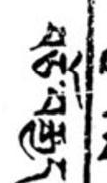བཅོ་བརྒྱད་
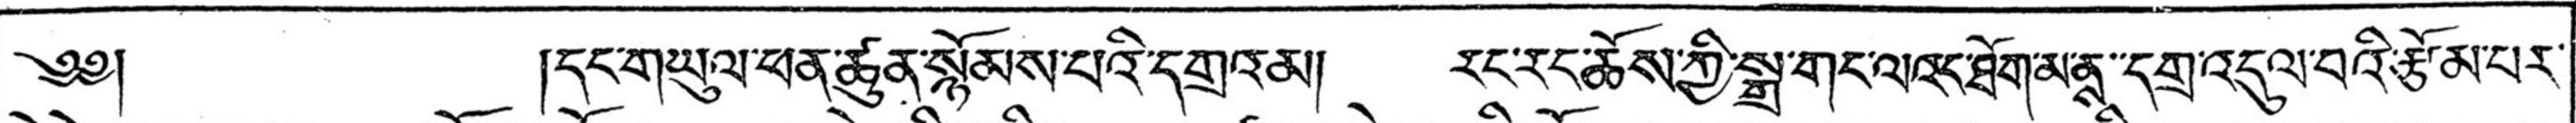༄༅། །དང་གཡུལ་ཕན་ཚུན་སྙོམས་པའི་དགྲའམ། རང་རང་ཆོས་ཀྱི་སྒྲ་གང་ལའང་ཐོག་མ་ནས་་དགྲ་འདུལ་བའི་རྩོམ་པར་
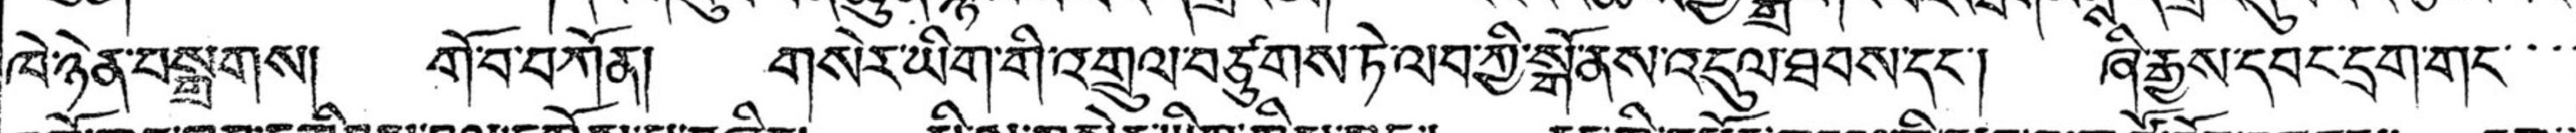ཁེ་ཉེན་བསྒྲགས། གོ་བ་བཀོན། གསེར་ཡིག་གི་འགྲུལ་བཙུགས་ཏེ་ལབ་ཀྱི་སྒོ་ནས་འདུལ་ཐབས་དང་། ཞི་རྒྱས་དབང་དྲག་གང་་་་
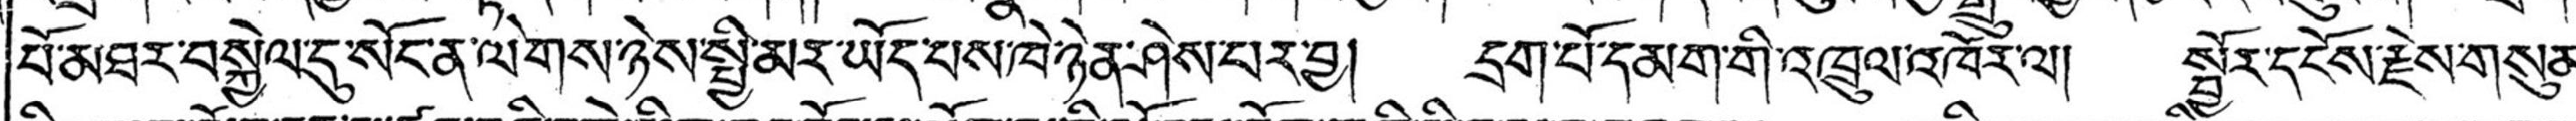པོ་མཐར་བསྐྱེལ་དུ་སོང་ན་ལེགས་ཉེས་སྤྱི་མར་ཡོད་པས་ཁེ་ཉེན་ཤེས་པར་བྱ། དྲག་པོ་དམག་གི་འཁྲུལ་འཁོར་ལ། སྦྱོར་དངོས་རྗེས་གསུམ་
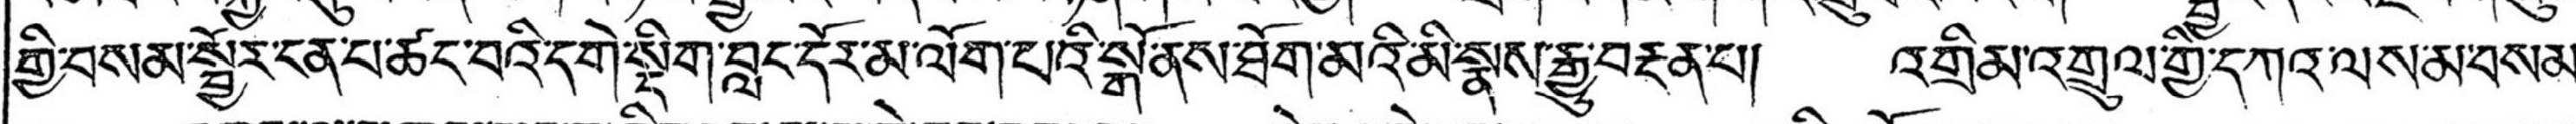གྱི་བསམ་སྦྱོར་ངན་པ་ཚང་བའི་དགེ་སྡིག་བླང་དོར་མ་ལོག་པའི་སྒོ་ནས་ཐོག་མའི་མི་སྣས་རྒྱུ་བརྔན་པ། འགྲིམ་འགྲུལ་གྱི་དཀའ་ལས་མ་བསམ་
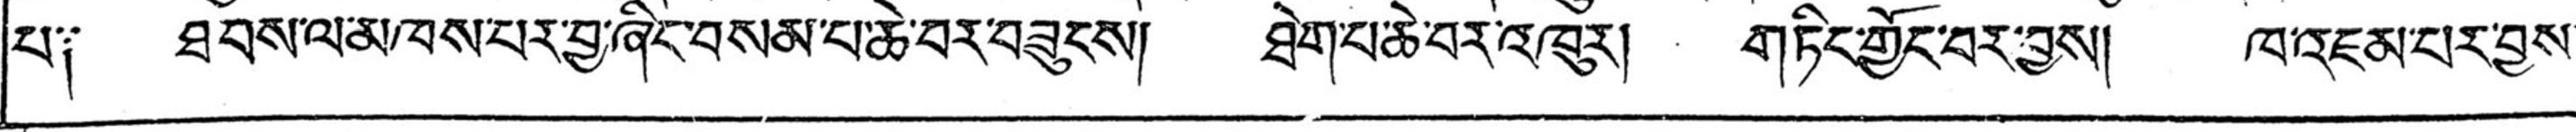པ༑ ཐབས་ལ་མཁས་པར་བྱ་ཞིང་བསམ་པ་ཆེ་བར་བཟུངས། ཐེག་པ་ཆེ་བར་འཁུར། གཏིང་གྱོང་བར་བྱས། ཁ་འཇམ་པར་བྱས་
